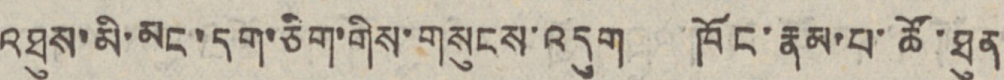འཐུས་མི་མང་དག་ཅིག་གིས་གསུངས་འདུག ཁོང་རྣམ་པ་ཚོ་ཐུན
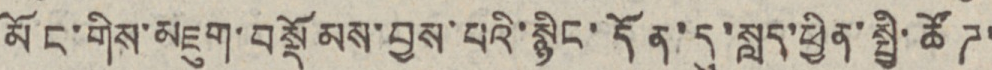མོང་གིས་མཇུག་བསྡོམས་བྱས་པའི་སྙིང་དོན་དུ་སླད་ཕྱིན་སྤྱི་ཚོཊ་
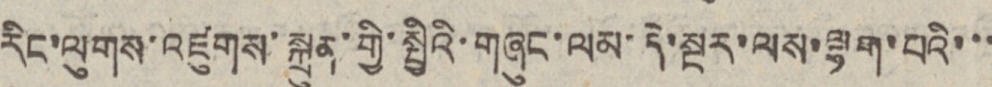རིང་ལུགས་འཛུགས་སྐྲུན་གྱི་སྤྱིའི་གཞུང་ལམ་དེ་སྔར་ལས་ལྷག་པའི་་་
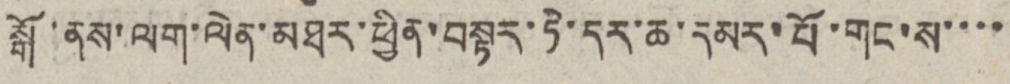སྒོ་ནས་ལག་ལེན་མཐར་ཕྱིན་བསྟར་ཏེ་དར་ཆ་དམར་པོ་གང་ས་་་་
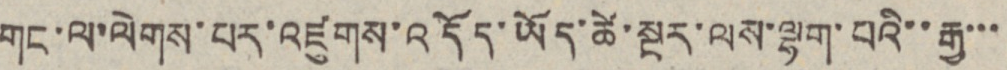གང་ལ་ལེགས་པར་འཛུགས་འདོད་ཡོད་ཚེ་སྔར་ལས་ལྷག་པའི་་རྒྱ་་་
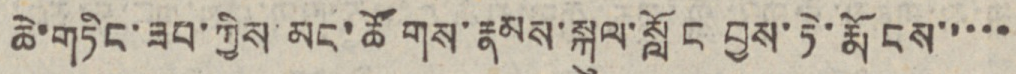ཆེ་གཏིང་ཟབ་ཀྱིས་མང་ཚོགས་རྣམས་སྐུལ་སློང བྱས་ཏེ་རྨོངས་་་་་
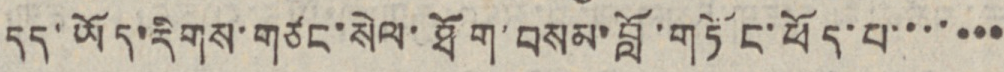དད་ཡོད་རིགས་གཙང་སེལ་ཐོག་བསམ་བློ་གཏོང་ཕོད་པ་་་་་་་
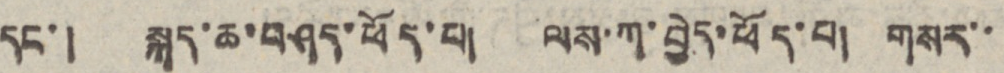དང་། སྐད་ཆ་བཤད་ཕོད་པ། ལས་ཀ་བྱེད་ཕོད་པ། གསར་་
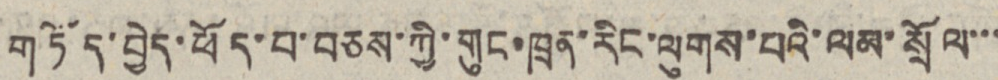གཏོད་བྱེད་ཕོད་པ་བཅས་ཀྱི་གུང་ཁྲན་རིང་ལུགས་པའི་ལམ་སྲོལ་་་
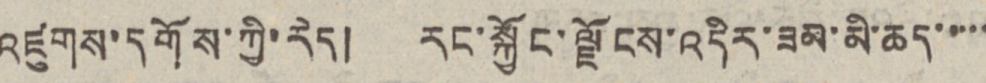འཛུགས་དགོས་ཀྱི་རེད། རང་སྐྱོང་འདིར་ཟམ་མི་ཆད་་་་་
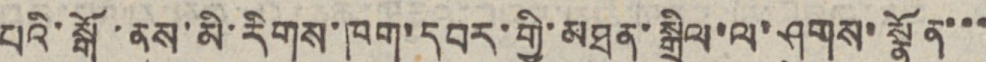པའི་སྒོ་ནས་མི་རིགས་ཁག་དབར་གྱི་མཐུན་སྒྲིལ་ལ་ཤུགས་སྣོན་་་
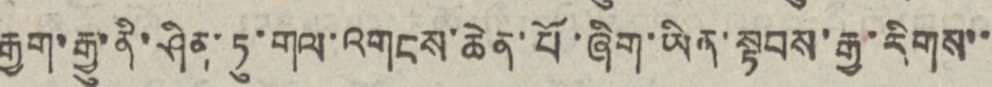རྒྱག་རྒྱུ་ནི་ཤིན་ཏུ་གལ་འགངས་ཆེན་པོ་ཞིག་ཡིན་སྟབས་རྒྱ་རིགས་་
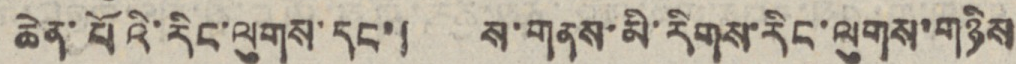ཆེན་པོའི་རིང་ལུགས་དང་། ས་གནས་མི་རིགས་རིང་ལུགས་གཉིས
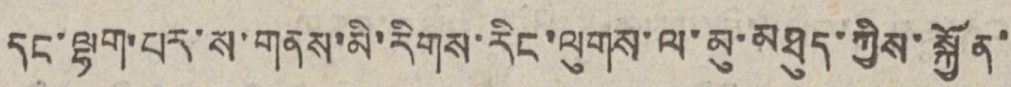དང་ལྷག་པར་ས་གནས་མི་རིགས་རིང་ལུགས་ལ་མུ་མཐུད་ཀྱིས་སྐྱོན་
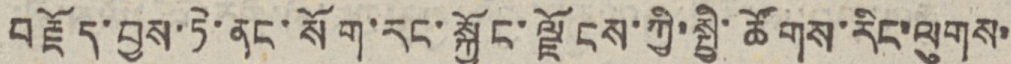བརྗོད་བྱས་ཏེ་ནང་སོག་རང་སྐྱོང་ལྗོངས་ཀྱི་སྤྱི་ཚོགས་རིང་ལུགས་
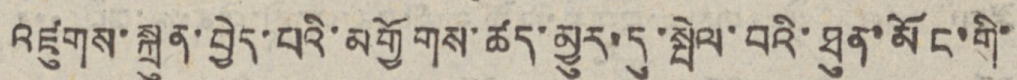འཛུགས་སྐྲུན་བྱེད་པའི་མགྱོགས་ཚད་མྱུར་དུ་སྤེལ་བའི་ཐུན་མོང་གི་
